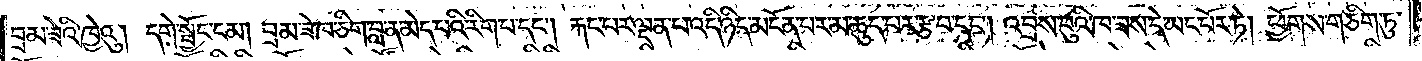བྲམ་ཟེའི་ཁྱེའུ། དགེ་སྦྱོང་ངམ། བྲམ་ཟེ་ཁ་ཅིག་བླ་ན་མེད་པའི་རིག་པ་དང༌། རྐང་པར་ལྡན་པ་འདི་ཉིད་མངོན་པར་མ་ཆུད་པར་རྩ་བ་དང༌། འབྲས་བུའི་ཁ་ཟས་དེ་ཡང་པོར་ཏེ། ཕྱོགས་གཅིག་ཏུ་
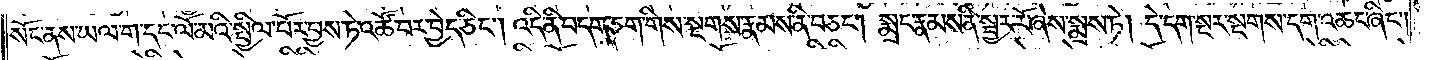སོང་ནས་ཡལ་ག་དང་ལོ་མའི་སྤྱིལ་པོར་བྱས་ཏེ་འཚོ་བར་བྱེད་ཅིང༌། འདི་ནི་བདག་ཅག་གིས་སྔགས་རྣམས་ནི་བཅང༌། སྨྲང་རྣམས་ནི་སྦྱར་རོ་ཞེས་སྨྲས་ཏེ། དེ་དག་སྔར་སྔགས་དག་འཆང་ཞིང༌། །
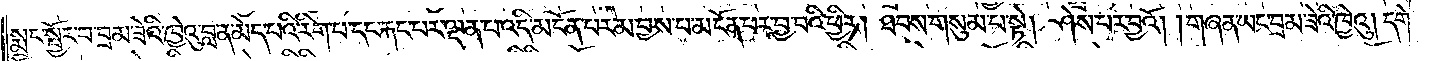སྨྲང་སྦྱོར་བ་བྲམ་ཟེའི་ཁྱེའུ་བླ་ན་མེད་པའི་རིག་པ་དང་རྐང་པར་ལྡན་པ་འདི་མངོན་པར་མ་བྱས་པ་མངོན་པར་བྱ་བའི་ཕྱིར། ཐབས་གསུམ་པ་སྟེ། ཤེས་པར་བྱའོ། །གཞན་ཡང་བྲམ་ཟེའི་ཁྱེའུ། དགེ་
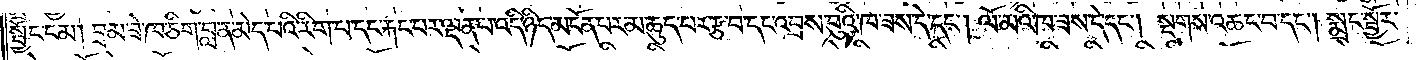སྦྱོང་ངམ། བྲམ་ཟེ་ཁ་ཅིག་བླ་ན་མེད་པའི་རིག་པ་དང་རྐང་པར་ལྡན་པ་འདི་ཉིད་མངོན་པར་མ་ཆུད་པར་རྩ་བ་དང་འབྲས་བུའི་ཁ་ཟས་དེ་དང༌། ལོ་མའི་ཁ་ཟས་དེ་དང༌། སྔགས་འཆང་བ་དང༌། སྨྲང་སྦྱོར་
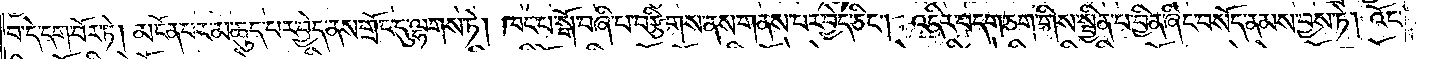བ་དེ་དག་བོར་ཏེ། མངོན་པར་མ་ཆུད་པར་བྱེད་ནས་གྲོང་དུ་ལྷགས་ཏེ། ཁང་པ་སྒོ་བཞི་པ་བརྩིགས་ནས་གནས་པར་བྱེད་ཅིང༌། འདིར་བདག་ཅག་གིས་སྦྱིན་པ་བྱིན་ཞིང་བསོད་ནམས་བྱས་ཏེ། འོང་
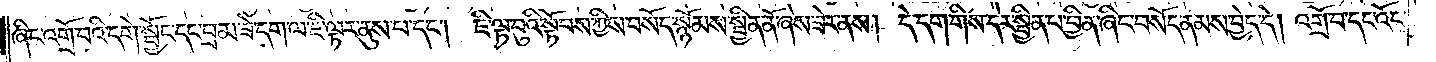ཞིང་འགྲོ་བའི་དགེ་སྦྱོང་དང་བྲམ་ཟེ་དག་ལ་ཇི་ལྟར་ནུས་པ་དང༌། ཇི་ལྟ་བུའི་སྟོབས་ཀྱིས་བསོད་སྙོམས་སྦྱིན་ནོ་ཞེས་ཟེར་ནས། དེ་དག་གིས་དེར་སྦྱིན་པ་བྱིན་ཞིང་བསོད་ནམས་བྱེད་དེ། འགྲོ་བ་དང་འོང་
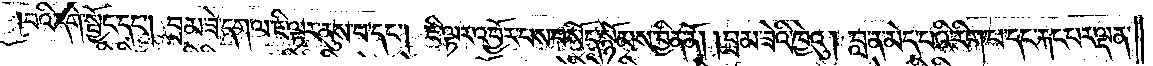བའི་དགེ་སྦྱོང་དང༌། བྲམ་ཟེ་དག་ལ་ཇི་ལྟར་ནུས་པ་དང༌། ཇི་ལྟར་འབྱོར་པས་བསོད་སྙོམས་བྱིན་ནོ། །བྲམ་ཟེའི་ཁྱེའུ། བླ་ན་མེད་པའི་རིག་པ་དང་རྐང་པར་ལྡན་
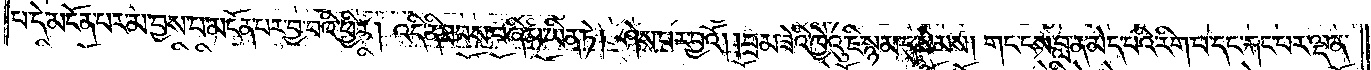པ་དེ་མངོན་པར་མ་བྱས་པ་མངོན་པར་བྱ་བའི་ཕྱིར། འདི་ནི་ཐབས་བཞི་པ་ཡིན་ཏེ། ཤེས་པར་བྱའོ། །བྲམ་ཟེའི་ཁྱེའུ་ཇི་སྙམ་དུ་སེམས། གང་ངས་བླ་ན་མེད་པའི་རིག་པ་དང་རྐང་པར་ལྡན་
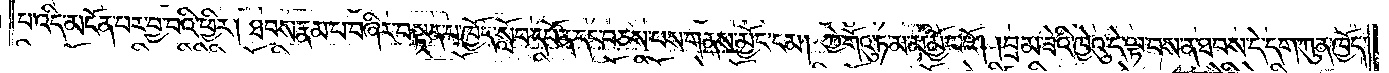པ་འདི་མངོན་པར་བྱ་བའི་ཕྱིར། ཐབས་རྣམ་པ་བཞིར་བསྟན་པ་ཁྱོད་སློབ་དཔོན་དང་བཅས་པས་གནས་མྱོང་ངམ། ཀྱེ་གོའུ་ཏ་མ་མ་མྱོང་ངོ༌། །བྲམ་ཟེའི་ཁྱེའུ་དེ་ལྟ་པས་ན་ཐབས་དེ་དག་ཀུན་ཁྱོད་
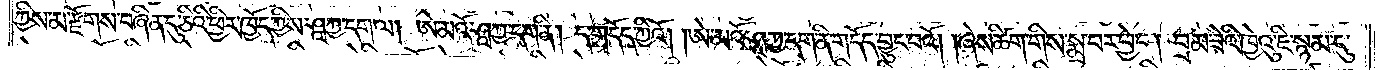ཀྱིས་མ་རྫོགས་བཞིན་དུ་ཅིའི་ཕྱིར་ཁྱོད་ཀྱིས་ཤཱཀྱ་དག་ལ། ཨེ་མའོ་ཤཱཀྱ་དག་ནི། ད་གདོད་ཀྱིའོ། །ཨེ་མའོ་ཤཱཀྱ་དག་ནི་གདོད་བྱུང་བའོ། །ཞེས་ཚིག་གིས་སྨྲ་བར་བྱེད། བྲམ་ཟེའི་ཁྱེའུ་ཇི་སྙམ་དུ་
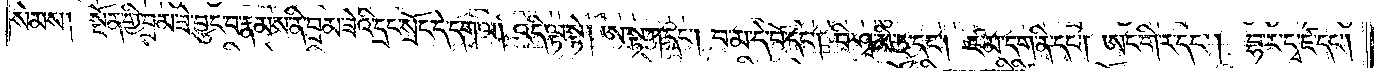སེམས། སྔོན་གྱི་བྲམ་ཟེ་བྱུང་བ་རྣམས་ནི་བྲམ་ཟེའི་དྲང་སྲོང་དེ་དག་ལ། འདི་ལྟ་སྟེ། ཨ་སྟ་ཀ་དང༌། བ་མ་དེ་བོ་དང༌། བི་ཤྭ་མི་ཏྲ་དང༌། ཛ་མ་དག་ནི་དང༌། ཨང་གི་ར་དང༌། བྷ་ར་དྭ་ཛ་དང༌།
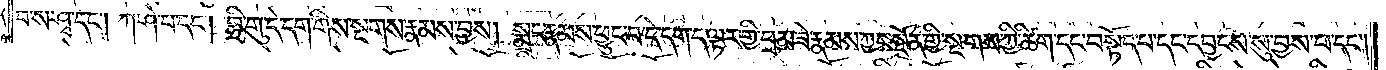བ་ས་ཤྭ་དང༌། ཀ་ཤེ་བ་དང༌། བྷྲི་གུ་དེ་དག་གིས་སྔགས་རྣམས་བྱས། སྨྲང་རྣམས་ཕྱུང་བ་དེ་དག་ད་ལྟར་གྱི་བྲམ་ཟེ་རྣམས་ཀྱང་སྔོན་གྱི་སྔགས་ཀྱི་ཚིག་དང་བསྟོད་པ་དང་དབྱངས་སུ་བྱས་པ་དང༌།
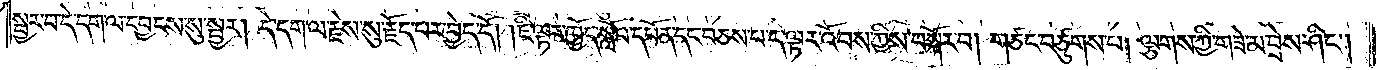སྦྱར་བ་དེ་དག་ལ་དབྱངས་སུ་སྦྱར། དེ་དག་ལ་རྗེས་སུ་རྗོད་པར་བྱེད་དོ། །ཇི་ལྟར་ཁྱོད་སློབ་དཔོན་དང་བཅས་པ་ད་ལྟར་འོབས་ཀྱིས་བསྐོར་བ། གཙང་བཙུགས་པ། ལྕགས་ཀྱི་གཟེ་མ་བྲེས་ཤིང༌།
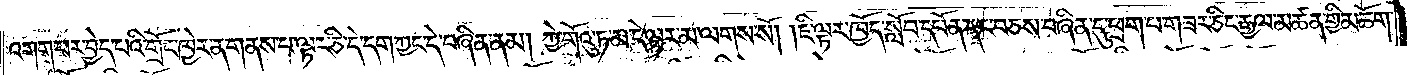འགག་པར་བྱེད་པའི་གྲོང་ཁྱེར་ན་གནས་པ་ལྟར་ཅི་དེ་དག་ཀྱང་དེ་བཞིན་ནམ། ཀྱེ་གོའུ་ཏ་མ་དེ་ལྟར་མ་ལགས་སོ། །ཇི་ལྟར་ཁྱོད་སློབ་དཔོན་དང་བཅས་བཞིན་དུ་ཕྲག་པ་གཟར་ཅིང་རྒྱལ་མཚན་གྱི་མཆོག་
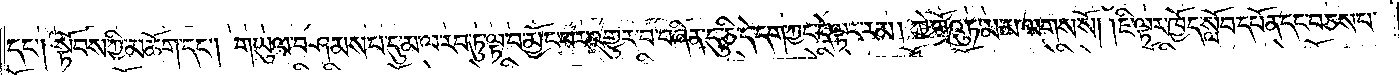དང༌། སྟོབས་ཀྱི་མཆོག་དང༌། གཡུལ་བཤམས་པ་དུ་མ་ལ་རབ་ཏུ་ལྟ་བ་མྱོང་བར་འགྱུར་བ་བཞིན་དུ་ཅི་དེ་དག་ཀྱང་དེ་ལྟར་རམ། ཀྱེ་གོའུ་ཏ་མ་མ་ལགས་སོ། །ཇི་ལྟར་ཁྱོད་སློབ་དཔོན་དང་བཅས་པ་
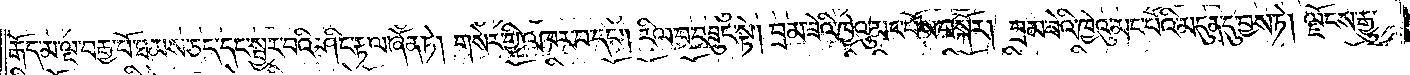རྒོད་མ་ལྔ་བརྒྱ་པོ་ཐམས་ཅད་དང་སྦྱར་བའི་ཤིང་རྟ་ལ་ཞོན་ཏེ། གསེར་གྱི་འཁར་བ་དང༌། རིལ་བ་བཟུང་སྟེ། བྲམ་ཟེའི་ཁྱེའུ་མང་པོས་བསྐོར། བྲམ་ཟེའི་ཁྱེའུ་མང་པོའི་མདུན་དུ་བྱས་ཏེ། ལྗོངས་རྒྱུ་
